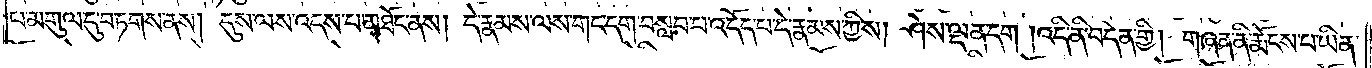བ་མགུལ་དུ་བཏགས་ནས། དུས་ལས་འདས་པ་མཐོང་ནས། དེ་རྣམས་ལས་གང་དག་བསླབ་པ་འདོད་པ་དེ་རྣམས་ཀྱིས། ཤེས་ལྡན་དག །འདི་ནི་བདེན་གྱི། གཞན་ནི་རྨོངས་པ་ཡིན་
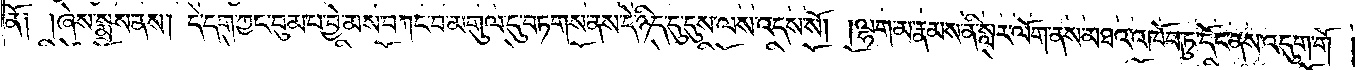ནོ༑ ༑ཞེས་སྨྲས་ནས། དེ་དག་ཀྱང་བུམ་པ་བྱེ་མས་བཀང་བ་མགུལ་དུ་བཏགས་ནས་དེ་ཉིད་དུ་དུས་ལས་འདས་སོ། །ལྷག་མ་རྣམས་ནི་སླར་ལོག་ནས་མཐའ་འཁོབ་ཏུ་དོང་ནས་འདུག་གོ།
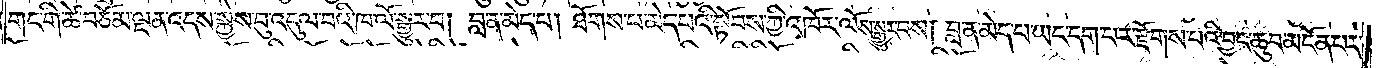གང་གི་ཚེ་བཅོམ་ལྡན་འདས་སྐྱེས་བུ་འདུལ་བའི་ཁ་ལོ་སྒྱུར་བ། གླ་ན་མེད་པ། ཐོགས་པ་མེད་པའི་སྟོབས་ཀྱི་འཁོར་ལོས་སྒྱུར་བས། བླ་ན་མེད་པ་ཡང་དག་པར་རྫོགས་པའི་བྱང་ཆུབ་མངོན་པར་
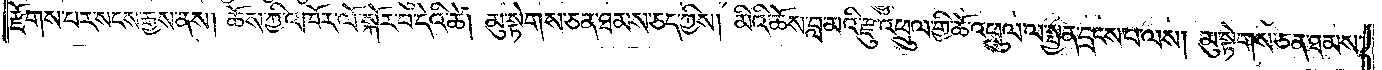རྫོགས་པར་སངས་རྒྱས་ནས། ཆོས་ཀྱི་འཁོར་ལོ་སྐོར་བ་དེའི་ཚེ། མུ་སྟེགས་ཅན་ཐམས་ཅད་ཀྱིས། མིའི་ཆོས་བླ་མའི་རྫུ་འཕྲུལ་གྱི་ཆོས་འཕྲུལ་ལ་སྤྱན་དྲངས་པ་ལས། མུ་སྟེགས་ཅན་ཐམས་
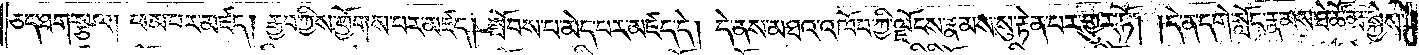ཅད་ཐག་སྩལ། ཕམ་པར་མཛད། རྒྱབ་ཀྱིས་ཕྱོགས་པར་མཛད། སྤོབས་པ་མེད་པར་མཛད་དེ། དེ་ནས་མཐའ་འཁོབ་ཀྱི་ལྗོངས་རྣམས་སུ་རྟེན་པར་གྱུར་ཏོ། །དེ་ན་དགེ་སློང་རྣམས་ཐེ་ཚོམ་སྐྱེས་
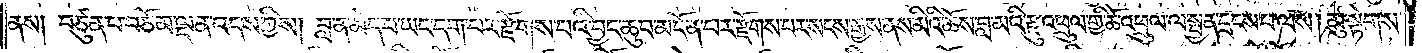ནས། བཙུན་པ་བཅོམ་ལྡན་འདས་ཀྱིས། བླ་ན་མེད་པ་ཡང་དག་པར་རྫོགས་པའི་བྱང་ཆུབ་མངོན་པར་རྫོགས་པར་སངས་རྒྱས་ནས་མིའི་ཆོས་བླ་མའི་རྫུ་འཕྲུལ་གྱི་ཆོ་འཕྲུལ་ལ་སྤྱན་དྲངས་པ་ལས། མུ་སྟེགས་
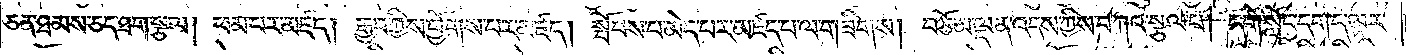ཅན་ཐམས་ཅད་ཐག་སྩལ། ཕམ་པར་མཛད། རྒྱབ་ཀྱིས་ཕྱོགས་པར་མཛད། སྤོབས་པ་མེད་པར་མཛད་པ་ལ་གཟིགས། བཅོམ་ལྡན་འདས་ཀྱིས་བཀའ་སྩལ་པ། དགེ་སློང་དག་ད་ལྟར་
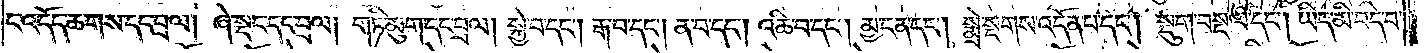ང་འདོད་ཆགས་དང་བྲལ། ཞེ་སྡང་དང་བྲལ། གཏི་མུག་དང་བྲལ། སྐྱེ་བ་དང༌། རྒ་བ་དང༌། ན་བ་དང༌། འཆི་བ་དང༌། མྱ་ངན་དང༌། སྨྲེ་སྔགས་འདོན་པ་དང༌། སྡུག་བསྔལ་དང༌། ཡིད་མི་བདེ་བ་
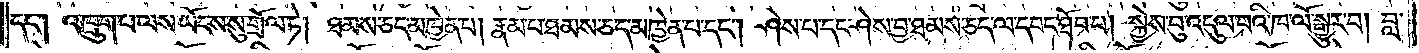དང༌། འཁྲུག་པ་ལས་ཡོངས་སུ་གྲོལ་ཏེ། ཐམས་ཅད་མཁྱེན་པ། རྣམ་པ་ཐམས་ཅད་མཁྱེན་པ་དང༌། ཤེས་པ་དང་ཤེས་བྱ་ཐམས་ཅད་ལ་དབང་ཐོབ་པ། སྐྱེས་བུ་འདུལ་བའི་ཁ་ལོ་སྒྱུར་བ། བླ་
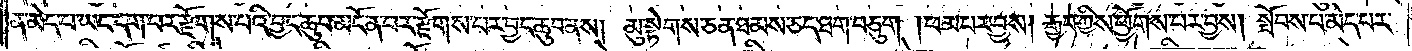ན་མེད་པ་ཡང་དག་པར་རྫོགས་པའི་བྱང་ཆུབ་མངོན་པར་རྫོགས་པར་བྱང་ཆུབ་ནས། མུ་སྟེགས་ཅན་ཐམས་ཅད་ཐག་བཅུག །ཕམ་པར་བྱས། རྒྱབ་ཀྱིས་ཕྱོགས་པར་བྱས། སྤོབས་པ་མེད་པར་
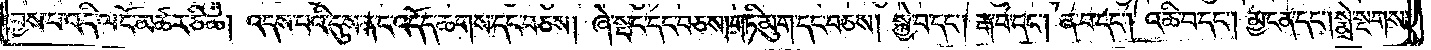བྱས་པ་འདི་ལ་ངོ་མཚར་ཅི་ཆེ། འདས་པའི་དུས་ནང་འདོད་ཆགས་དང་བཅས། ཞེ་སྡང་དང་བཅས། གཏི་མུག་དང་བཅས། སྐྱེ་བ་དང༌། རྒ་བ་དང༌། ན་བ་དང༌། འཆི་བ་དང༌། མྱ་ངན་དང༌། སྨྲེ་སྔགས་
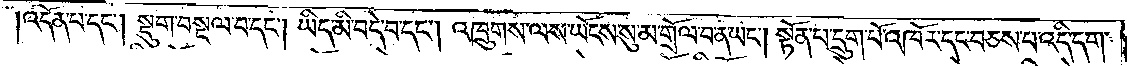འདོན་པ་དང༌། སྡུག་བསྔལ་བ་དང༌། ཡིད་མི་བདེ་བ་དང༌། འཁྲུགས་ལས་ཡོངས་སུ་མ་གྲོལ་བ་ན་ཡང༌། སྟོན་པ་དྲུག་པོ་འཁོར་དང་བཅས་པ་འདི་དག་
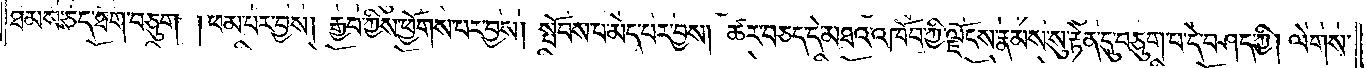ཐམས་ཅད་ཐག་བཅུག །ཕམ་པར་བྱས། རྒྱབ་ཀྱིས་ཕྱོགས་པར་བྱས། སྤོབས་པ་མེད་པར་བྱས། ཚར་བཅད་དེ་མཐའ་འཁོབ་ཀྱི་ལྗོངས་རྣམས་སུ་རྟེན་དུ་བཅུག་པ་དེ་བཤད་ཀྱི། ལེགས་
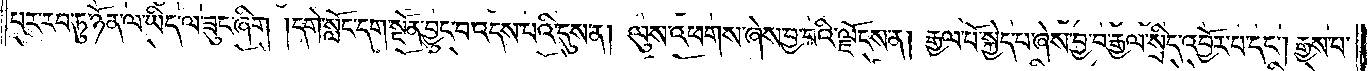པར་རབ་ཏུ་ཉོན་ལ་ཡིད་ལ་ཟུང་ཞིག །དགེ་སློང་དག་སྔོན་བྱུང་བ་འདས་པའི་དུས་ན། ལུས་འཕགས་ཞེས་བྱ་བའི་ལྗོངས་ན། རྒྱལ་པོ་སྐྱེད་པ་ཞེས་བྱ་བ་རྒྱལ་སྲིད་འབོར་བ་དང༌། རྒྱས་པ་
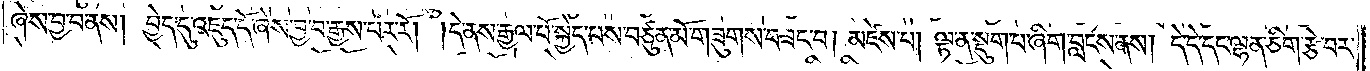ཞེས་བྱ་བ་ནས། བྱེད་དུ་འཇུད་དོ་ཞེས་བྱ་བ་རྒས་པར་རོ། །དེ་ནས་རྒྱལ་པོ་སྐྱེད་པས་བཙུན་མོ་གཟུགས་བཟང་བ། མཛེས་པ། ལྟ་ན་སྡུག་པ་ཞིག་བླངས་ནས། དེ་དེ་དང་ལྷན་ཅིག་རྩེ་བར་
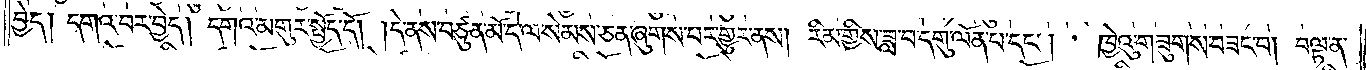བྱེད། དགའ་བར་བྱེད། དགའ་མགུར་སྤྱོད་དོ། །དེ་ནས་བཙུན་མོ་དེ་ལ་སེམས་ཅན་ཞུགས་པར་གྱུར་ནས། རིམ་གྱིས་ཟླ་བ་དགུ་ལོན་པ་དང༌། ཁྱེའུ་གཟུགས་བཟང་བ། བལྟ་ན་
